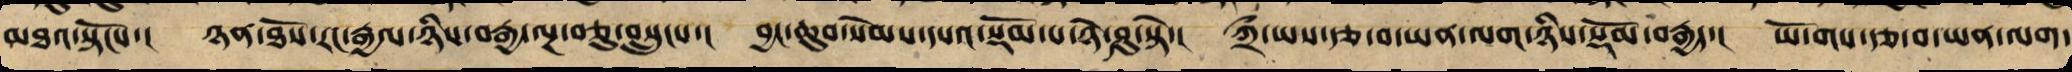མཐའ་སྟོངས་། ཉན་ཐོས་རང་རྒྱལ་ཉིས་བརྒྱ་ལྔ་བཅུ་བསྲུང་་། བྱང་ཆུབ་སེམས་དཔའི་སྡོམ་པ་ཉེ་ཤུ་སྟེ་། ཀྲྀ་ཡས་རྩ་བ་ཡན་ལག་ཉིས་སྡོམ་བརྒྱད་། ཡོ་གས་རྩ་བ་ཡན་ལག་
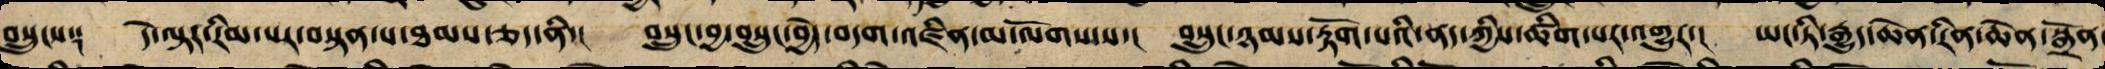བསྲུང་་༑ དེ་ལྟར་རིམ་པར་བསྟན་པ་ཐམས་ཅད་ནི་། བསྲུང་བྱ་བསྲུང་བྱེད་བདག་འཛིན་མ་ལོག་པས་། བསྲུང་ཉམས་རྟོག་པའི་ནད་ཀྱིས་ཚིག་པར་འགྱུར་། ཡང་ཏི་རྒྱུད་ཆེན་རིན་ཆེན་སྒྲོན
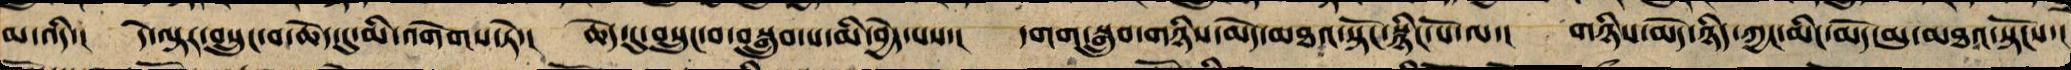མ་འདི་། དེ་ལྟར་བསྲུང་བ་ཆེད་དུ་མི་འགེག་སྟེ་། ཆེད་དུ་བསྲུང་བ་བསྒྲུབ་པ་མི་བྱེད་པས་། དགག་བསྒྲུབ་གཉིས་མེད་མཐའ་སྟོང་སྙིང་པོ་ལ་། གཉིས་མེད་ཉིད་ཀྱང་མིང་མེད་མུ་མཐའ་སྟོངས་།
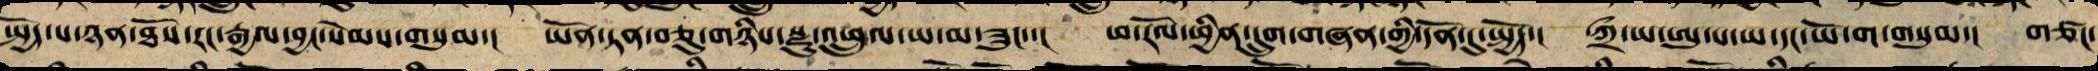སྤྱོད་པ་ཉན་ཐོས་རང་རྒྱལ་བྱང་སེམས་གསུམ་། ཡོན་ཏན་བཅུ་གཉིས་རྫུ་འཕྲུལ་ཡ་མ་ཟུང་་། ཕ་རོལ་ཕྱིན་དྲུག་གཞན་གྱི་དོན་དུ་སྤྱོད་། གྲྀ་ཡ་ཨུ་པ་ཡ་དང་ཡོ་ག་གསུམ་། གཙང་
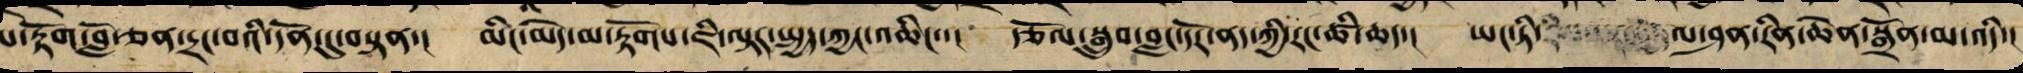མ་རྟོག་བློ་ཅན་དྲང་བའི་དོན་དུ་བསྟན་། མིང་མེད་མ་རྟོགས་ཇི་ལྟར་སྤྱད་ཀྱང་འཆིང་་། རྩོལ་སྒྲུབ་བླང་དོར་ནད་ཀྱིས་རང་ཚི་ཆད་། ཡང་ཏི་ལ་ཤན་རིན་ཆེན་སྒྲོན་མ་འདི་།
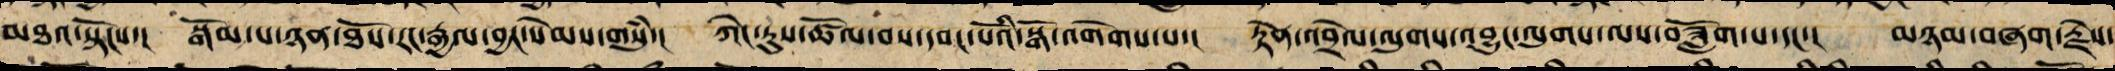མཐའ་སྟོངས་། སྒོམ་པ་ཉན་ཐོས་རང་རྒྱལ་བྱང་སེམས་གསུཾ་། ཀེང་རུས་ཚོལ་བས་དབང་པོའི་སྒོ་འགེགས་པ་། རྟེན་འབྲེལ་ལུགས་འབྱུང་ལུགས་ལས་བཟློག་པ་དང་། མཉམ་བཞག་རྗེས་
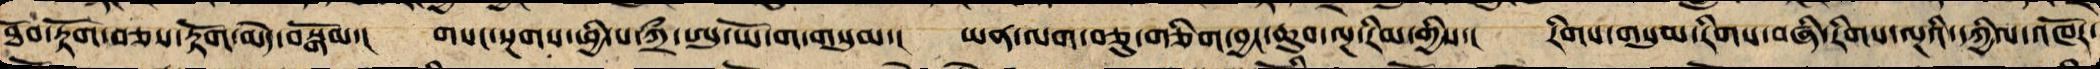ཐོབ་རྟོག་བཅས་རྟོག་མེད་བསྒོམ་། གསང་སྔགས་ཕྱི་པ་ཀྲྀ་ཨུ་ཡོ་ག་གསུམ་། ཡན་ལག་བཅུ་གཅིག་བྱང་ཆུབ་ལྔ་རིམ་གྱིས་། རིགས་གསུམ་རིགས་བཞི་རིགས་ལྔའི་དཀྱིལ་འཁོར་
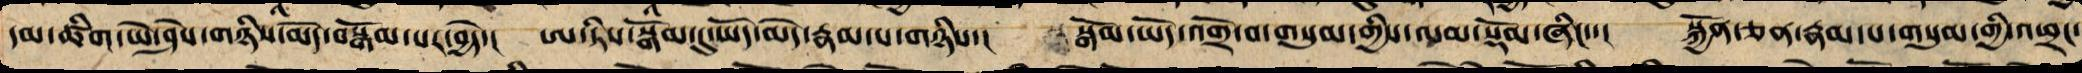དམ་ཚིག་ཡེ་ཤེས་གཉིས་མེད་བསྒོམ་པར་བྱེད་། ཨ་ཏིས་སྒོམ་དུ་ཡོད་མེད་རྣམ་པ་གཉིས་། སྒོམ་ཡོད་འགྲོ་བ་གསུམ་གྱི་ལམ་བསྡོམས་ཞིང་་། སྐྱོན་ཅན་རྣམ་པ་གསུམ་གྱི་འཕྲང་
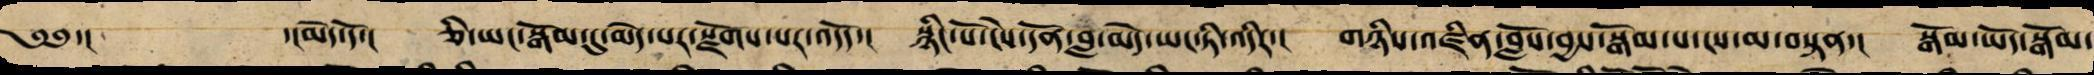༄༅་། ་།མེད་དོ་། ཅི་ཡང་བསྒོམ་དུ་མེད་པར་སྫོགས་པར་འདོད་། སྙིང་པོ་ངེས་དོན་བླ་མེད་ཡང་ཏི་འདིར་། གཉིས་འཛིན་བློས་བྱས་སྒོམ་པ་ངས་མ་བསྟན་། སྒོམ་ཡོད་སྒོམ་
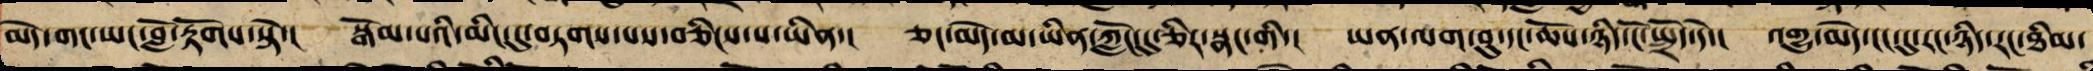མེད་གང་ཡང་བློ་རྟོག་སྟེ་། སྒོམ་པའི་མིང་དུ་བཏགས་པས་བཅིངས་པ་ཡིན་། ཅང་མེད་མ་ཡིན་ཀློང་དུ་ཅིར་སྣང་གི་། ཡན་ལག་བུ་དང་ཆོས་ཉིད་ངོ་སྤྲོད་དེ་། འགྱུ་མེད་ངང་དུ་རང་ཉིད་རང་ཐིམ་
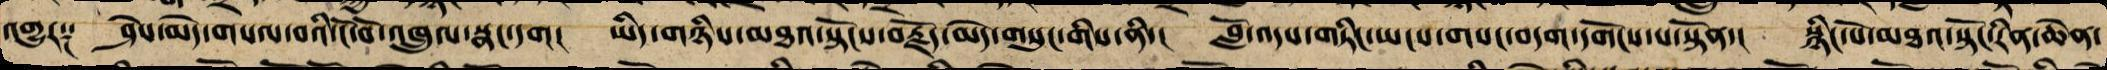འགྱུར༑ ཤེས་མེད་གསལ་བའི་ངོ་བོར་འཁྲུལ་སྣང་དག། ཡིད་གཉིས་མཐའ་སྟོངས་བརྗོད་མེད་གསུང་གིས་ནི་། བློ་འདས་གཏིང་ཡངས་གསང་བདག་དགོངས་པ་སྟོན་། སྙིང་པོ་མཐའ་སྟོང་རིན་ཆེན་
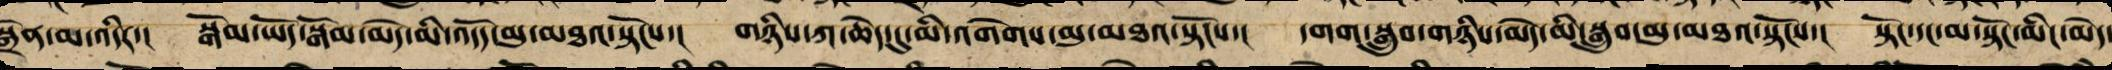སྒྲོན་མ་འདིར་། སྒོམ་ཡོད་སྒོམ་མེད་མི་འདོད་མུ་མཐའ་སྟོངས་། གཉིས་ཀ་ཆེད་དུ་མི་འགག་མུ་མཐའ་སྟོངས་། དགག་སྒྲུབ་གཉིས་མེད་མི་སྒྲུབ་མུ་མཐའ་སྟོངས་། སྟོང་དང་མི་སྟོང་མིང་མེད་
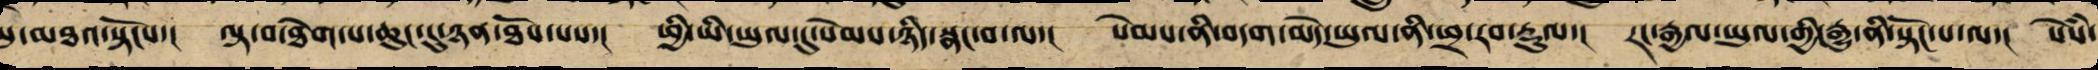མུ་མཐའ་སྟོངས་། ལྟ་བ་ཐེག་པ་ཆུང་ངུ་ཉན་ཐོས་པས་། ཕྱི་ཡི་ཡུལ་དུ་སེམས་ཉིད་སྣང་བ་ལ་། སེམས་ནི་བདག་མེད་ཡུལ་ནི་ཕྲ་རབ་རྡུལ་། རང་རྒྱལ་ཡུལ་གྱི་རྒྱུ་ནི་སྣང་བ་ལ་། སེཾས་
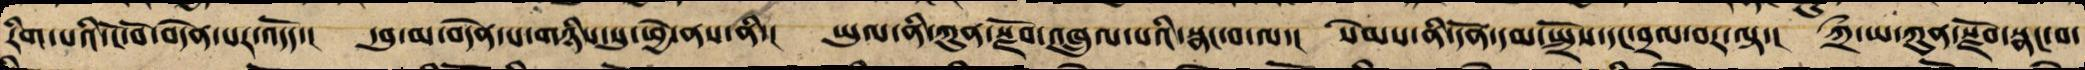རིག་པའི་ངོ་བོ་བདེན་པར་འདོད་། དབུ་མས་བདེན་པ་གཉིས་སུ་ཕྱེ་ནས་ནི། ཡུལ་ནི་ཀུན་སྫོབ་འཁྲུལ་པའི་སྣང་བ་ལ་། སེམས་ནི་དོན་དམ་སྤྲོས་དང་བྲལ་བར་ལྟ་། ཀྲྀ་ཡས་ཀུན་སྫོབ་སྣང་བ་
